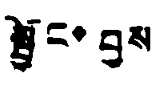སྦྱོང་བྱས
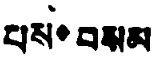པས་བསམ
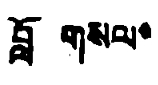བློ་གསལ་
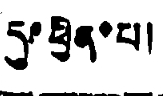དུ་ཕྱིན་པ།
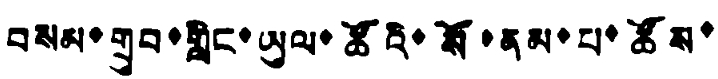བསམ་གྲུབ་གླིང་ཡུལ་ཚོའི་སོ་ནམ་པ་ཚོས་
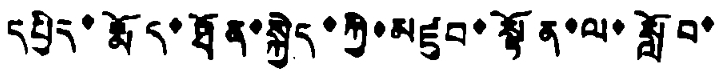དཔྱིད་རྨོད་ཐོན་སྐྱེད་ཀྱི་མཛུབ་སྟོན་ལ་སློབ་
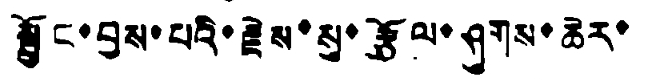སྦྱོང་བྱས་པའི་རྗེས་སུ་རྩོལ་ཤུགས་ཆེར་
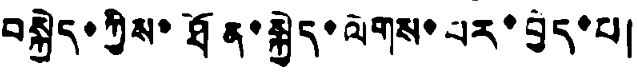བསྐྱེད་ཀྱིས་ཐོན་སྐྱེད་ལེགས་པར་བྱེད་པ།
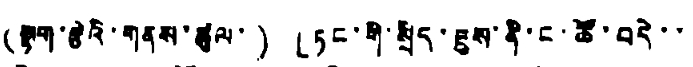(སྟག་རྩེའི་གནས་ཚུལ་)「ཏང་གི་སྲིད་ཇུས་ནི་ང་ཚོ་བདེ་་
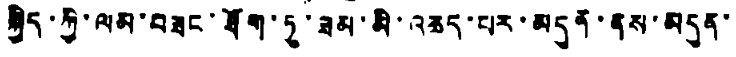སྐྱིད་ཀྱི་ལམ་བཟང་ཐོག་ཏུ་ཟམ་མི་འཆད་པར་མདུན་ནས་མདུན་
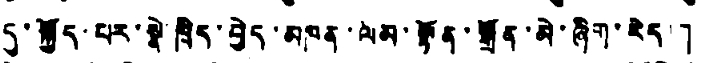དུ་སྐྱོད་པར་སྣེ་ཁྲིད་བྱེད་མཁན་ལམ་སྟོན་སྒྲོན་མེ་ཞིག་རེད།」
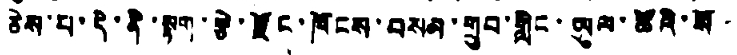ཅེས་པ་དེ་ནི་སྟག་རྩེ་རྫོང་ཁོངས་བསམ་གྲུབ་གླིང་ཡུལ་ཚོའི་སོ་
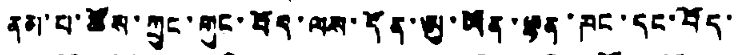རྣམ་པ་ཚོས་ཀྲུང་གུང་བོད་ལས་དོན་ཨུ་ཡོན་ལྷན་ཁང་དང་བོད་
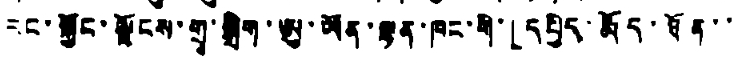རང་སྐྱོང་ལྗོངས་གྲྭ་སྒྲིག་ཨུ་ཡོན་ལྷན་ཁང་གི་「དཔྱིད་རྨོད་ཐོན་་
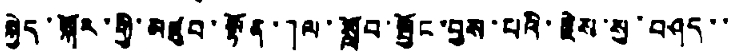སྐྱེད་སྐོར་གྱི་མཛུབ་སྟོན་」ལ་སློབ་སྦྱོང་བྱས་པའི་རྗེས་སུ་བཤད་་
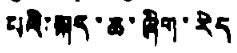པའི་སྐད་ཆ་ཞིག་རེད།
